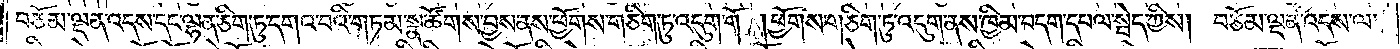བཅོམ་ལྡན་འདས་དང་ལྷན་ཅིག་ཏུ་དགའ་བའི་གཏམ་སྣ་ཚོགས་བྱས་ནས་ཕྱོགས་གཅིག་ཏུ་འདུག་གོ །ཕྱོགས་གཅིག་ཏུ་འདུག་ནས་ཁྱིམ་བདག་དཔལ་སྦེད་ཀྱིས། བཅོམ་ལྡན་འདས་ལ་
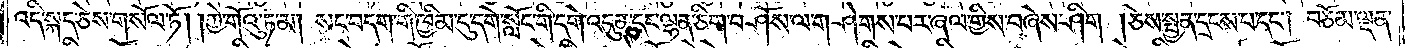འདི་སྐད་ཅེས་གསོལ་ཏོ། །ཀྱེ་གོའུ་ཏ་མ། སང་བདག་གི་ཁྱིམ་དུ་དགེ་སློང་གི་དགེ་འདུན་དང་ལྷན་ཅིག་བཤོས་ལ་གཤེགས་པར་ཞལ་གྱིས་བཞེས་ཤིག །ཅེས་སྤྱན་དྲངས་པ་དང༌། བཅོམ་ལྡན་
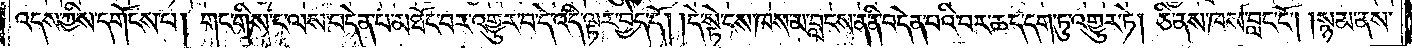འདས་ཀྱིས་དགོངས་པ། གང་གིས་ང་ལས་བདེན་པ་མཐོང་བར་འགྱུར་བ་དེ་འདི་ལྟར་བྱེད་དོ། །དེ་སྟེ་ངས་ཁས་མ་བླངས་ན་ནི་བདེན་པའི་བར་ཆད་དག་ཏུ་འགྱུར་ཏེ། ཅི་ནས་ཁས་བླང་ངོ༌། །སྙམ་ནས་
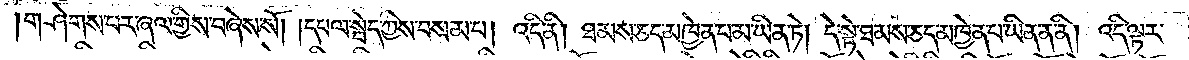གཤེགས་པར་ཞལ་གྱིས་བཞེས་སོ། །དཔལ་སྦེད་ཀྱིས་བསམ་པ། འདི་ནི། ཐམས་ཅད་མཁྱེན་པ་མ་ཡིན་ཏེ། དེ་སྟེ་ཐམས་ཅད་མཁྱེན་པ་ཡིན་ན་ནི། འདི་ལྟར་
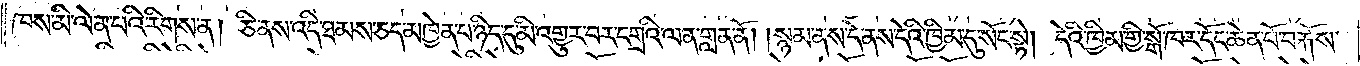ཁས་མི་ལེན་པའི་རིགས་ན། ཅི་ནས་འདི་ཐམས་ཅད་མཁྱེན་པ་ཉིད་དུ་མི་འགྱུར་བར་དགྲའི་ལན་གླན་ནོ། །སྙམ་ནས་དེ་ནས་དེའི་ཁྱིམ་དུ་སོང་སྟེ། དེའི་ཁྱིམ་གྱི་སྒོ་ཁར་དོང་ཆེན་པོ་བརྐོས་
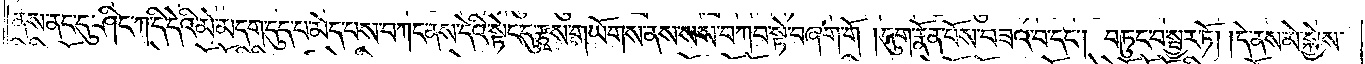ནས་ནང་དུ་ཤིང་ཀ་དི་དེའི་མེ་མདག་དུད་པ་མེད་པས་བཀང་ནས་དེའི་སྟེང་དུ་རྩྭས་གཡོགས་ནས་སས་བཀབ་སྟེ་བཞག་གོ །དུག་རྣོན་པོས་བཟའ་བ་དང༌། བཏུང་བ་སྦྱར་ཏོ། །དེ་ནས་མེ་སྐྱེས་
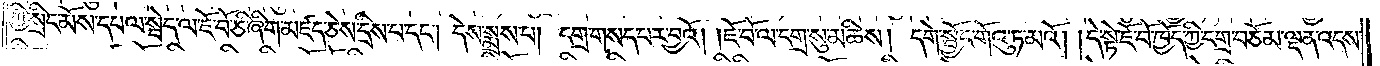ཀྱི་སྲིང་མོས་དཔལ་སྦེད་ལ་ཇོ་བོ་ཅི་ཞིག་མཛད་ཅེས་དྲིས་པ་དང༌། དེས་སྨྲས་པ། དགྲ་གསད་པར་བྱའོ། །ཇོ་བོ་ལ་དགྲ་སུ་མཆིས། དགེ་སྦྱོང་གོའུ་ཏ་མའོ། །དེ་སྟེ་ཇོ་བོ་ཁྱོད་ཀྱི་དགྲ་བཅོམ་ལྡན་འདས་
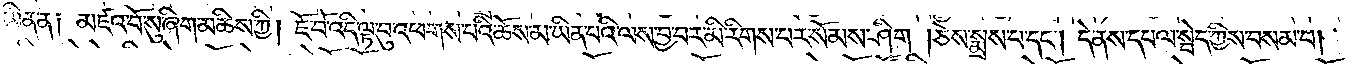ཡིན་ན༑ མཛའ་བོ་སུ་ཞིག་མཆིས་ཀྱི། ཇོ་བོ་འདི་ལྟ་བུ་འཕགས་པའི་ཆོས་མ་ཡིན་པའི་ལས་བྱ་བར་མི་རིགས་པར་སོམས་ཤིག །ཅེས་སྨྲས་པ་དང༌། དེ་ནས་དཔལ་སྦེད་ཀྱིས་བསམ་པ།
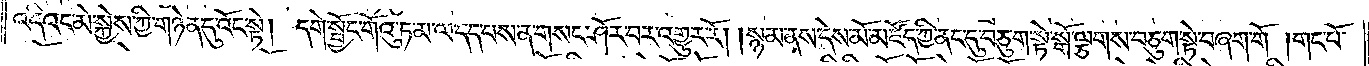འདིའང་མེ་སྐྱེས་ཀྱི་གཉེན་དུ་འོང་སྟེ། དགེ་སྦྱོང་གོའུ་ཏ་མ་ལ་དད་པས་ན་གསང་ཤོར་བར་འགྱུར་རོ། །སྙམ་ནས་དེས་མོ་མཛོད་ཀྱི་ནང་དུ་བཅུག་སྟེ་སྒོ་ལྕགས་བཅུག་སྟེ་བཞག་གོ །གང་པོ་
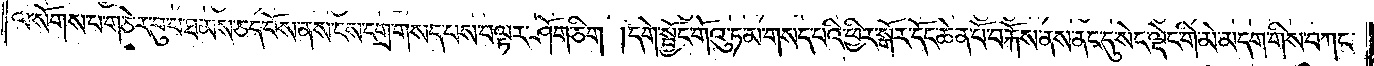ལ་སོགས་པ་གཅེར་བུ་པ་ཐམས་ཅད་བོས་ནས་ངས་དགྲ་གསད་པས་བལྟར་ཤོག་ཅིག །དགེ་སྦྱོང་གོའུ་ཏ་མ་གསད་པའི་ཕྱིར་སྒོར་དོང་ཆེན་པོ་བརྐོས་ནས་ནང་དུ་སེང་ལྡེང་གི་མེ་མདག་གིས་བཀང་
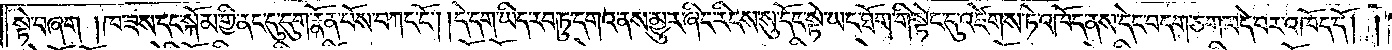སྟེ་བཞག །ཁ་ཟས་དང་སྐོམ་གྱི་ནང་དུ་དུག་རྣོན་པོས་བཀང་ངོ༌། །དེ་དག་ཡིད་རབ་ཏུ་དགའ་ནས་མྱུར་ཞིང་རིངས་སུ་དོང་སྟེ་ཡང་ཐོག་གི་སྟེང་དུ་འཛེགས་ཏེ་འཁོད་ནས་དེང་བདག་ཅག་བདེ་བར་འཁོད་དོ། །
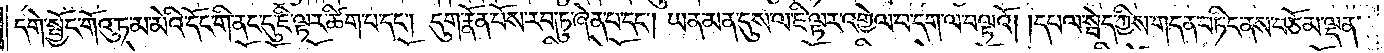དགེ་སྦྱོང་གོའུ་ཏ་མ་མེའི་དོང་གི་ནང་དུ་ཇི་ལྟར་ཚིག་པ་དང༌། དུག་རྣོན་པོས་རབ་ཏུ་ཞེན་པ་དང༌། ཡན་མན་དུས་ལ་ཇི་ལྟར་འགྱེལ་བ་དག་ལ་བལྟའོ། །དཔལ་སྦེད་ཀྱིས་གདན་བཏིང་ནས་བཅོམ་ལྡན་
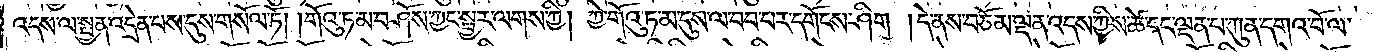འདས་ལ་སྤྱན་འདྲེན་པས་དུས་གསོལ་ཏོ། །གོའུ་ཏ་མ་བཤོས་ཀྱང་སྦྱར་ལགས་ཀྱི། ཀྱེ་གོའུ་ཏ་མ་དུས་ལ་བབ་པར་དགོངས་ཤིག །དེ་ནས་བཅོམ་ལྡན་འདས་ཀྱིས་ཚེ་དང་ལྡན་པ་ཀུན་དགའ་བོ་ལ་
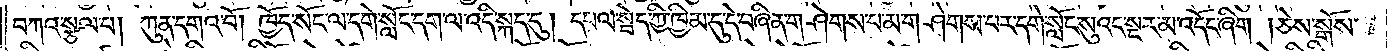བཀའ་སྩལ་པ། ཀུན་དགའ་བོ། ཁྱོད་སོང་ལ་དགེ་སློང་དག་ལ་འདི་སྐད་དུ། དཔལ་སྦེད་ཀྱི་ཁྱིམ་དུ་དེ་བཞིན་གཤེགས་པ་མ་གཤེགས་པར་དགེ་སློང་སུའང་སྔར་མ་འདོང་ཞིག །ཅེས་སྒོས་
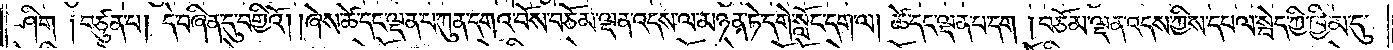ཤིག ༑བཙུན་པ། དེ་བཞིན་དུ་བགྱིའོ། །ཞེས་ཚེ་དང་ལྡན་པ་ཀུན་དགའ་བོས་བཅོམ་ལྡན་འདས་ལ་མཉན་ཏེ་དགེ་སློང་དག་ལ། ཚེ་དང་ལྡན་པ་དག །བཅོམ་ལྡན་འདས་ཀྱིས་དཔལ་སྦེད་ཀྱི་ཁྱིམ་དུ་
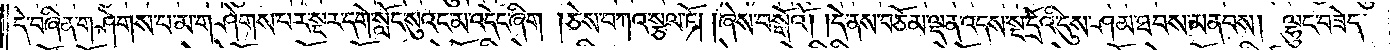དེ་བཞིན་གཤེགས་པ་མ་གཤེགས་པར་སྔར་དགེ་སློང་སུའང་མ་འདེང་ཞིག །ཅེས་བཀའ་སྩལ་ཏོ། །ཞེས་བསྒོའོ། །དེ་ནས་བཅོམ་ལྡན་འདས་སྔ་དྲོའི་དུས་ཤམ་ཐབས་མནབས། ལྷུང་བཟེད་
